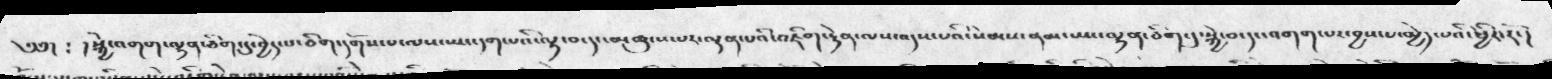༄༅།  ༴  ། སྐྱེ་འགག་ལྷན་ཅིག་དུ་བྱེད་པ་ཅིག་དགོས་པ་ལས་ཡང་དག་པའི་ལྟ་བ་དང་མཚུངས་པར་ལྡན་པའི་འཇིག་རྟེན་ལས་འདས་པའི་སེམས་ནམ་ཡང་ལྷན་ཅིག་དུ་སྐྱེ་བ་དང་འགག་པར་བྱས་པ་མྱེད་པའི་ཕྱིར་རོ་།
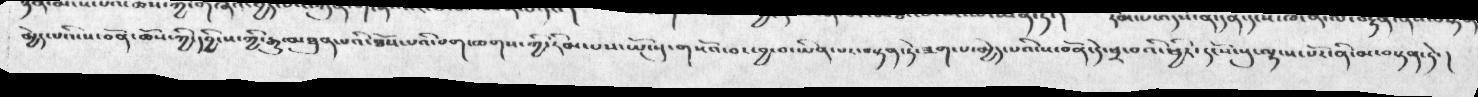མྱེད་པའི་ས་བོན་ཆོས་ཀྱི་དབྱིངས་ཀྱི་རྒྱུ་མཐུན་པའི་ཐོས་པའི་བག་ཆགས་ཀྱི་རིམ་པས་ཡོངསུ་གསོའ་བར་བྱ་བ་ཡིན་པར་བསྟན་ཏེ་ཟག་པ་མྱེད་པའི་ས་བོན་དེ་ཕྲ་བའི་ཕྱིར་དངོས་སུ་ལྷ་ས་པོར་ནི་མ་བསྟན་ཏེ་།
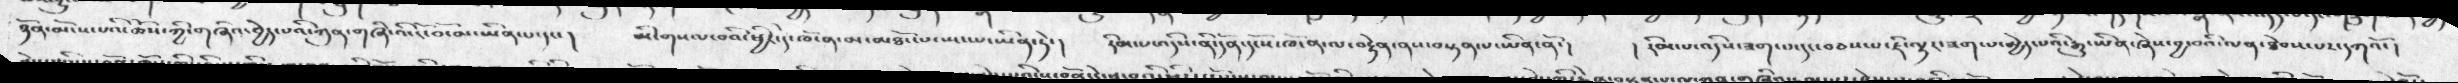ཉོན་མོངས་པའི་ཆོས་ཀྱི་གཞིའ་བྱེད་པའི་ཀུན་གཞི་འི་ངོ་བོ་མ་ཡིན་པ་དང་།  མི་གསལ་བའི་ཕྱིར་དེ་ཁོ་ན་མ་མཐོང་པ་སྤང་པ་ཡིན་ཏེ་།  རིམ་པ་འདིས་ནི་དོན་དངོས་ཁོ་ན་ལ་བརྟེན་ནས་བསྟན་པ་ཡིན་ནོ་།  ། རིམ་པ་འདིས་ཟག་པ་དང་བཅས་པ་ཇི་ལྟར་ཟག་པ་མྱེད་པའི་རྒྱུ་ཡིན་ཞེས་བྱ་བའི་ལན་ཐེབས་པར་དཀའོ་།
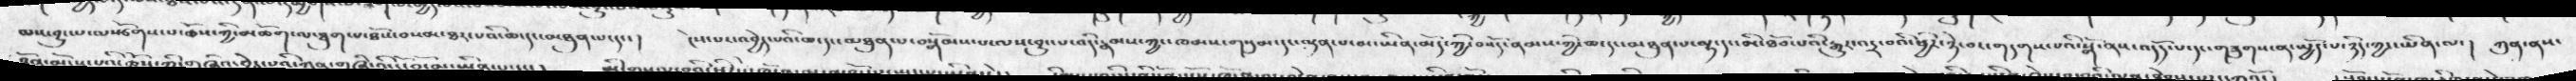མས་བྱུང་པ་ལསྩོགས་པ་ཆོས་ཀྱི་མཆོག་ལ་ཐུག་པ་ཐོས་བསམ་ཐར་པའི་ཆ་དང་མཐུན་པ་དང་།  ངེས་པར་འབྱེད་པའི་ཆ་དང་མཐུན་པ་བསྒོམས་པ་ལས་བྱུང་པ་འདི་རྣམས་ཀྱང་ཁམས་གསུམ་དང་ལྡན་པ་མ་ཡིན་མོད་ཀྱི་བསོད་ནམས་ཀྱི་ཆ་དང་མཐུན་པ་ལྷ་དང་མི་ཐོབ་པའི་རྒྱུར་འདྲ་བའི་ཕྱིར་ཉེ་བར་གདགས་པའི་སྒོ་ནས་འདོད་པ་་དང་གཟུགས་ན་སྤྱོད་པ་ཉིད་ཀྱང་ཡིན་ལ་།  ཀུན་ནས་
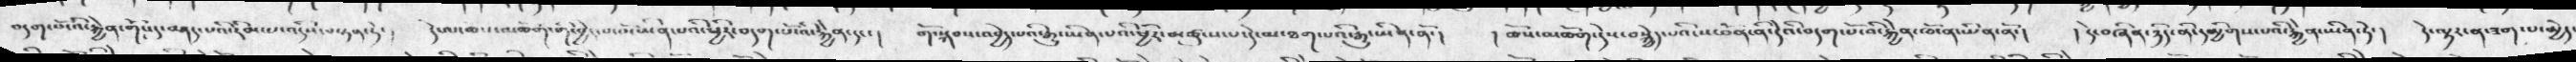བདག་པོ་འི་རྐྱེན་གོང་དུ་བཤད་པའི་རིམ་པ་འདིས་བསྟན་ཏེ་།  དེ་ལ་ཆ་དང་མཆོག་གི་བྱེད་པ་པོ་ཡིན་པའི་ཕྱིར་བདག་པོ་འི་རྐྱེན་དང་།  གོ་སྐབས་འབྱེད་པའི་རྒྱུ་ཡིན་པའི་ཕྱིར་མཚུངས་པ་དེ་མ་ཐག་པའི་རྒྱུ་ཡིན་ནོ་།  ། ཆོས་མཆོག་དེས་བསྐྱེད་པའི་ས་བོན་ནི་དེའི་བདག་པོ་འི་རྐྱེན་ཁོ་ན་ཡིན་ནོ་།  ། དེ་བཞིན་ཉིད་ནི་དམྱིགས་པའི་རྐྱེན་ཡིན་ཏེ་།  དེ་ལྟར་ན་ཟག་པ་མྱེད་
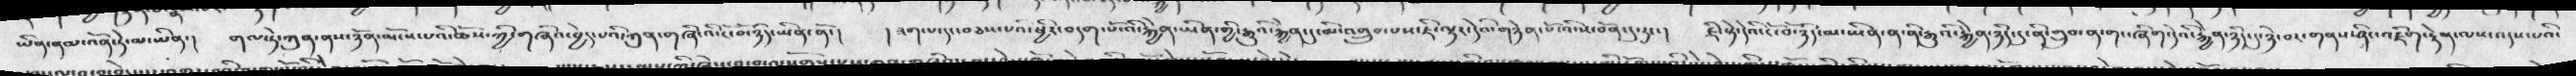ཡིན་ནམ་འོན་ཏེ་མ་ཡིན་།  གལ་ཏེ་ཀུན་ནས་ཉོན་མོངས་པའི་ཆོས་ཀྱི་གཞིའ་བྱེད་པའི་ཀུན་གཞིའི་ངོ་བོ་ཉིད་ཡིན་ནོ་།  ། ཟག་པ་དང་བཅས་པའི་ཕྱིར་བདག་པོ་འི་རྐྱེན་ཡིན་གྱི་རྒྱུའི་རྐྱེན་དུ་མི་འགྲུབ་པས་ཇི་ལྟར་དེའི་གཉེན་པོ་འི་ས་བོན་དུ་རུང་།  ཇི་སྟེ་དེའི་ངོ་བོ་ཉིད་མ་ཡིན་ན་ནི་རྒྱུའི་རྐྱེན་ཉིད་དུ་ནི་གྲུབ་ན་གང་ཞིག་དེའི་རྐྱེན་ཉིད་དུ་ཉེ་བར་གནས་ཤིང་འཇིག་རྟེན་ལས་འདས་པའི་
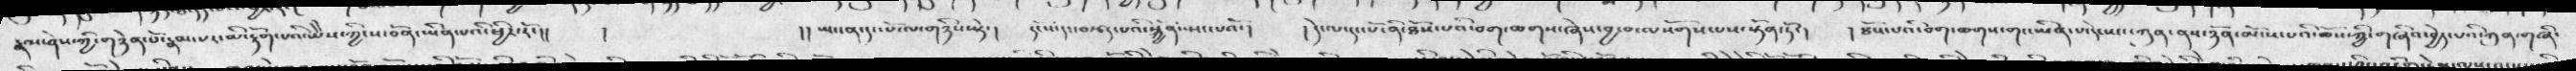རྣམ་ཤེས་ཀྱི་གཉེན་པོ་རྣམ་པར་མི་རྟོག་པའི་ཡེེས་ཀྱི་ས་བོན་ཡིན་པའི་ཕྱིར་རོ་།།  །      །།  ཡང་ན་དང་པོ་ལ་གཉིས་སྟེ་།  དངོས་དང་བརྩད་པའི་སྐྱོན་སྤང་པའོ་།  ། དེ་ལ་དང་པོ་ནི་ཐོས་པའི་བག་ཆགས་ཞེས་བྱ་བ་ལསོགས་པས་སྟོན་ཏོ་།  ། ཐོས་པའི་བག་ཆགས་གང་ཡིན་པ་དེང་སང་ཀུན་ནས་ཉོན་མོངས་པའི་ཆོས་ཀྱི་གཞིའ་བྱེད་པའི་ཀུན་གཞི་
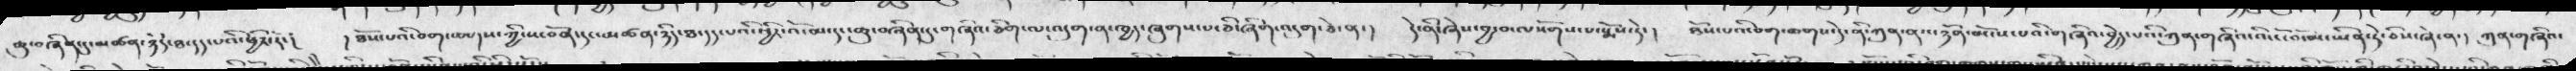ཆུ་བཞིན་དུ་མཚན་ཉིད་ཐ་དད་པའི་ཕྱིར་རོ་།  ། ཐོས་པའི་བག་ཆགས་ཀྱི་ས་བོན་དང་མཚན་ཉིད་ཐ་དད་པའི་ཕྱིར་འོ་མ་དང་ཆུ་བཞིན་དུ་གཞིའ་ཅིག་ལ་འདུག་ན་ཁྱད་ཞུགས་པ་ཅི་ཞིག་འདུ་ཅེ་ན་།  དེ་ནི་ཞེས་བྱ་བ་ལསོགས་པ་སྨོས་ཏེ་།  ཐོས་པའི་བག་ཆགས་དེ་ནི་ཀུན་ནས་ཉོན་མོངས་པའི་གཞིའ་བྱེད་པའི་ཀུན་གཞིའ་འི་ངོ་བོ་མ་ཡིན་ཏེ་ཅིས་ཞེ་ན་།  ཀུན་གཞིའ་
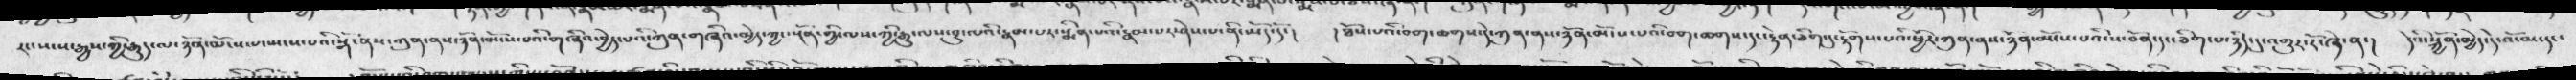རང་སངས་རྒྱས་ཀྱི་རྒྱུད་ལ་ཉོན་མོངས་པ་སྤངས་པའི་སྒོ་ནས་ཀུན་ནས་ཉོན་མོངས་པའི་གཞིའ་བྱེད་པའི་ཀུན་གཞིའ་མྱེད་ཀྱང་སྔོན་གྱི་ལས་ཀྱི་རྒྱུ་ལས་བྱུང་པའི་རྣམ་པར་སྨིན་པའི་རྣམ་པར་ཤེས་པ་ནི་ཡོད་དོ་།  ། ཐོས་པའི་བག་ཆགས་དེ་ཀུན་ནས་ཉོན་མོངས་པའི་བག་ཆགས་དང་རྟེན་ཅིག་དུ་རྟོགས་པའི་ཕྱིར་ཀུན་ནས་ཉོན་མོངས་པའི་ས་བོན་དང་ཅིག་པ་ཉིད་དུ་འགྱུར་རོ་ཞེ་ན་།  དེའི་སྐྱོན་མྱེད་དེ་འོ་མ་དང་         ། ཿ  ཾ།
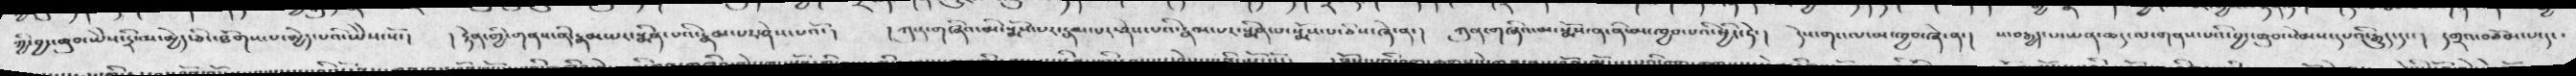ཀྱི་བྱང་ཆུབ་ཡེེས་དྲི་མ་མྱེད་ཅིང་ཐོགས་པ་མྱེད་པའི་ཡེེས་སོ་།  ། རྟེན་གྱི་གནས་ནི་རྣམ་པར་སྨིན་པའི་རྣམ་པར་ཤེས་པའོ་།  ། ཀུན་གཞིའ་མི་སྨོས་པར་རྣམ་པར་ཤེས་་པའི་རྣམ་པར་སྨིན་པ་སྨོས་པ་ཅིས་ཞེ་ན་།  ཀུན་གཞིའ་མ་སྨོན་ན་ནི་མ་ཁྱབ་པའི་ཕྱིར་ཏེ་།  དེ་གང་ལ་མ་ཁྱབ་ཞེ་ན་།  ས་བརྒྱད་པ་ཡན་ཆད་ལ་གནས་པའི་བྱང་ཆུབ་སེམས་དཔའི་རྒྱུད་དང་།  དགྲའ་བཅོམ་པ་དང་     ཿཿཿཿཿ
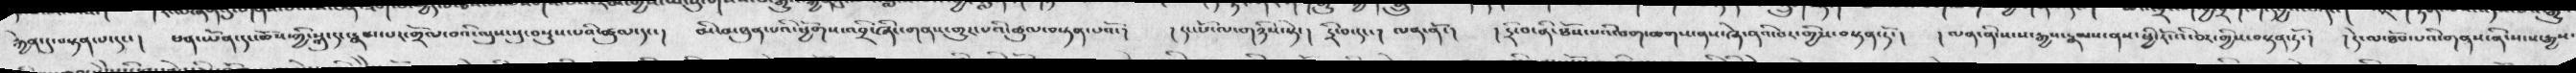རྐྱེན་དུ་བསྟན་པ་དང་།  ཕན་ཡོན་དང་ཆོས་ཀྱི་སྐུ་དང་རྣམ་པར་གྲོལ་བའི་ལུས་སུ་བསྡུས་པའི་ཚུལ་དང་།  མི་མཐུན་པའི་ཕྱོགས་འབྲི་ཞིང་གནས་གྱུར་པའི་ཚུལ་བསྟན་་པའོ་།  ། དང་པོ་ལ་གཉིས་སྟེ་།   དྲི་བ་དང་།    ལན་ནོ་།  ། དྲི་བ་ནི་ཐོས་པའི་བག་ཆགས་ནས་ཞེ་ནའི་བར་གྱིས་བསྟན་ཏོ་།  ། ལན་ནི་སངས་རྒྱས་རྣམས་ནས་ཕྱི་རོ་འི་བར་གྱིས་བསྟན་ཏོ་།  ། དེ་ལ་ཐོབ་པའི་གནས་ནི་སངས་རྒྱས་
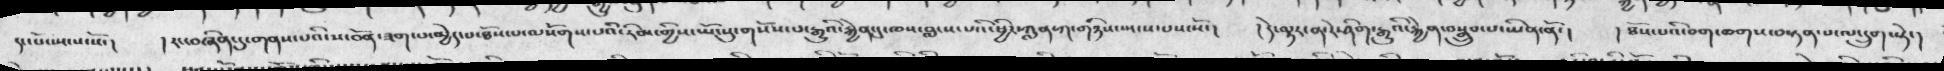དང་པོ་སྤངས་སོ་།  ། རང་བཞིན་དུ་གནས་པའི་ས་བོན་ཟག་པ་མྱེད་པ་ཐོས་པ་ལསོགས་པའི་རིམ་གྱིས་ཡོངསུ་གསོས་པ་རྒྱུའི་རྐྱེན་དུ་ཁས་བླངས་པའི་ཕྱིར་ཀླན་ཀ་གཉིས་སྤངས་པས་སོ་།  ། དེ་ལྟར་ན་རེ་ཤིག་རྒྱུའི་རྐྱེན་བསྒྲུབ་པ་ཡིན་ནོ་།  ། ཐོས་པའི་བག་ཆགས་བསྟན་པ་ལ་དྲུག་སྟེ་།
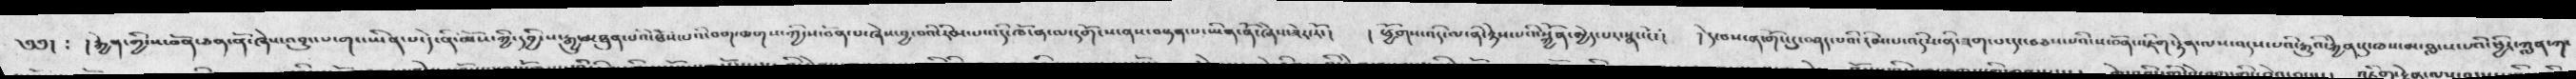༄༅།  ༴  །  རྐྱེན་གྱི་ས་བོན་ཅན་ནོ་ཞེས་འབྱུང་པ་གང་ཡིན་པ་དེ་ནི་ཆོས་ཀྱི་དབྱིངས་རྒྱུ་མཐུན་པའི་ཐོས་པའི་བག་ཆགས་ཀྱི་ས་བོན་པ་ཞེས་བྱ་བའི་རིམ་པ་འདི་ཁོ་ན་ལ་དགོངས་ནས་བསྟན་པ་ཡིན་ནོ་ཞེས་ཟེར་རོ་།  ། ཕྱོགས་འདི་ལ་ནི་ཉེས་པའི་སྐྱོན་མྱེད་པར་སྣང་ངོ་།  ། དེ་བས་ན་གོང་དུ་བཤད་པའི་རིམ་པ་འདིས་ནི་ཟག་པ་དང་བཅས་པའི་ས་བོན་འཇིག་རྟེན་ལས་འདས་པའི་རྒྱུའི་རྐྱེན་དུ་ཁས་བླངས་པའི་ཕྱིར་ཀླན་ཀ་
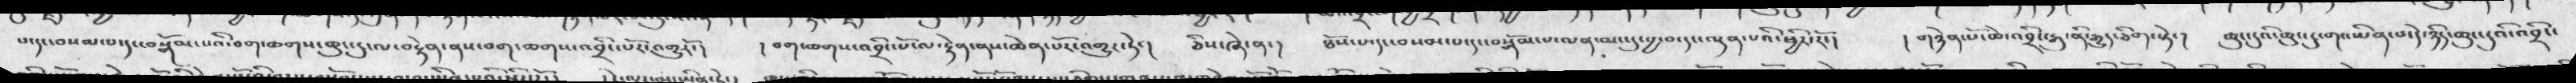པ་དང་བསམ་པ་དང་བསྒོམ་པའི་བག་ཆགས་ཆུང་དུ་ལ་བརྟེན་ནས་བག་ཆགས་འབྲིང་པོར་འགྱུརོ་།  ། བག་ཆགས་འབྲིང་པོ་ལ་རྟེན་ནས་ཆེན་པོར་འགྱུར་ཏེ་།  ཅིས་ཞེ་ན་།  ཐོས་པ་དང་བསམ་པ་དང་བསྒོམ་པ་ལན་མང་དུ་བྱ་བ་དང་ལྡན་པའི་ཕྱིར་རོ་།  ། གཉེན་པོ་ཆེ་འབྲིང་རྒུ་ནི་རྒྱུད་ཅིག་སྟེ་།  ཆུང་ངུའི་ཆུང་ངུ་གང་ཡིན་པ་དེ་ཉིད་ཆུང་ངུའི་འབྲིང་ད
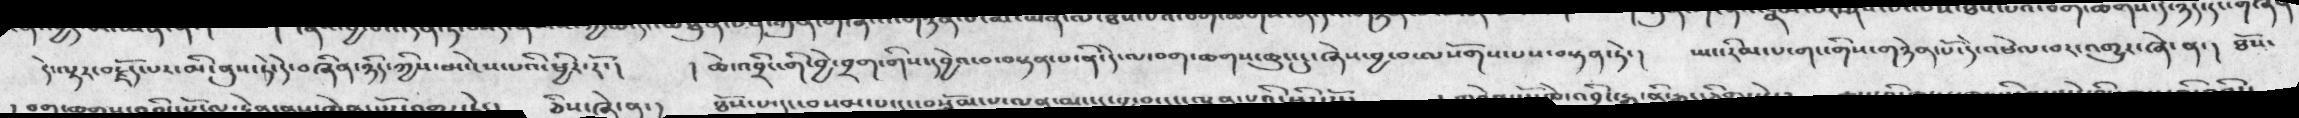དེ་ལྟར་བརྗོད་པར་མི་ནུས་ཏེ་དེ་བཞིན་ཉིད་ཀྱིས་མ་ངེས་པའི་ཕྱིར་རོ་།  ། ཆེ་འབྲིང་གི་བྱེ་བྲག་གིས་དབྱེའ་བ་བསྟན་པ་ནི་དེ་ལ་བག་ཆགས་ཆུང་ངུ་ཞེས་བྱ་བ་ལསོགས་པས་བསྟན་ཏེ་།  ཡང་རིམ་པ་གང་གིས་གཉེན་པོ་དེ་འཕེལ་བར་འགྱུར་ཞེ་ན་།  ཐོས་
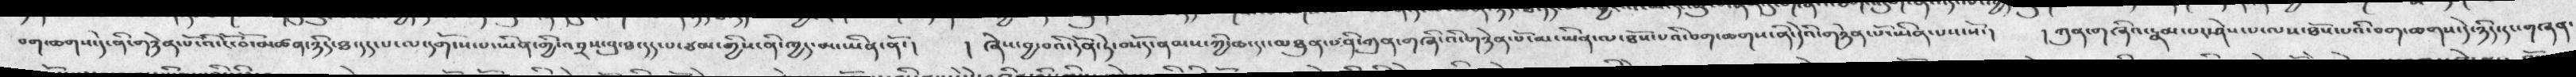བག་ཆགས་དེ་ནི་གཉེན་པོ་འི་ངོ་བོ་མཚན་ཉིད་ཐ་དད་པ་ལ་དགོས་པ་ཡིན་གྱི་འབྲས་བུ་ཐ་དད་པ་ཙམ་གྱིས་ནི་ཁྱད་མ་ཡིན་ནོ་།  ། ཞེས་བྱ་བའི་དོན་ཏེ་བསོད་ནམས་ཀྱི་ཆ་དང་མཐུན་པ་ནི་ཀུན་གཞིའི་གཉེན་པོ་མ་ཡིན་ལ་ཐོས་པའི་བག་ཆགས་ནི་དེའི་གཉེན་པོ་ཡིན་པས་སོ་།  ། ཀུན་གཞིའ་རྣམ་པར་ཤེས་པ་ལས་ཐོས་པའི་བག་ཆགས་དེ་ཉིད་དང་གཞན་
